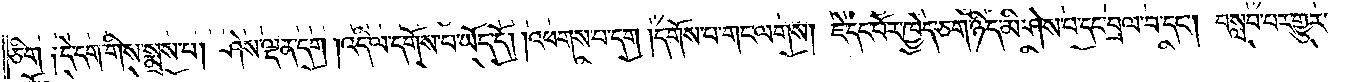ཅིག་༑དེ་དག་གིས་སྨྲས་པ། ཤེས་ལྡན་དག །འདི་ལ་དགོས་པ་ཡོད་དོ། །འཕགས་པ་དག །དགོས་པ་གང་ལགས། ཇེ་དང་པོར་ཁྱེད་ཅག་ཉིད་མི་ཤེས་པ་དང་བྲལ་བ་དང༌། བསླབ་པར་གྱུར་
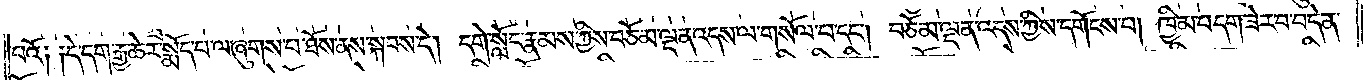པའོ༑ ༑དེ་དག་རྒྱ་ཆེར་སྨོད་པ་ལ་ཞུགས་པ་ཐོས་ནས་སྐབས་དེ། དགེ་སློང་རྣམས་ཀྱིས་བཅོམ་ལྡན་འདས་ལ་གསོལ་པ་དང༌། བཅོམ་ལྡན་འདས་ཀྱིས་དགོངས་པ། ཁྱིམ་བདག་ཟེར་བ་བདེན་
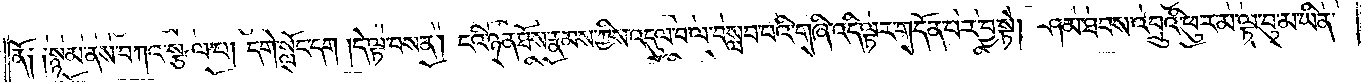ནོ༑ ༑སྙམ་ནས་བཀའ་སྩལ་པ། དགེ་སློང་དག །དེ་ལྟ་བས་ན། ངའི་ཉན་ཐོས་རྣམས་ཀྱིས་འདུལ་བ་ལ་བསླབ་པའི་གཞི་འདི་ལྟར་གདོན་པར་བྱ་སྟེ། ཤམ་ཐབས་འབྲུའི་ཕུར་མ་ལྟ་བུ་མ་ཡིན་
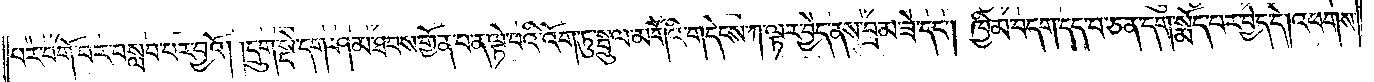པར་བགོ་བར་བསླབ་པར་བྱའོ། །དྲུག་སྡེ་དག་ཤམ་ཐབས་གྱོན་པ་ན་ལྟེ་བའི་འོག་ཏུ་སྦྲུལ་མགོའི་གདེངས་ཀ་ལྟར་བྱེད་ནས་བྲམ་ཟེ་དང༌། ཁྱིམ་བདག་དད་པ་ཅན་དག་སྨོད་པར་བྱེད་དེ། འཕགས་
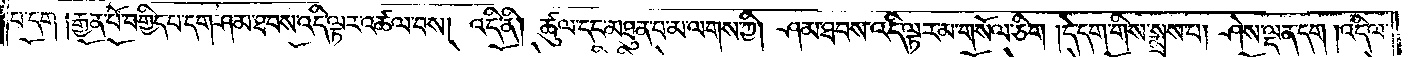པ་དག །རྒྱན་པོ་བགྱིད་པ་དག་ཤམ་ཐབས་འདི་ལྟར་འཚལ་བས། འདི་ནི། ཚུལ་དང་མཐུན་པ་མ་ལགས་ཀྱི། ཤམ་ཐབས་འདི་ལྟར་མ་གསོལ་ཅིག །དེ་དག་གིས་སྨྲས་པ། ཤེས་ལྡན་དག །འདི་ལ་
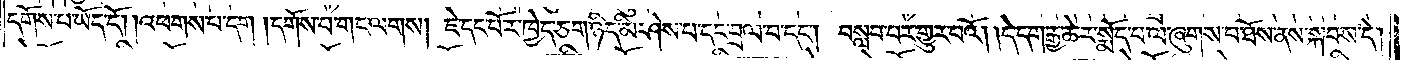དགོས་པ་ཡོད་དོ། །འཕགས་པ་དག །དགོས་པ་གང་ལགས། ཇེ་དང་པོར་ཁྱེད་ཅག་ཉིད་མི་ཤེས་པ་དང་བྲལ་བ་དང༌། བསླབ་པར་གྱུར་པའོ། །དེ་དག་རྒྱ་ཆེར་སྨོད་པ་ལ་ཞུགས་པ་ཐོས་ནས་སྐབས་དེ།
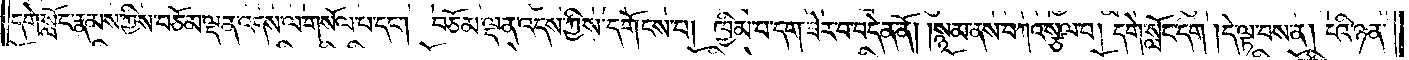དགེ་སློང་རྣམས་ཀྱིས་བཅོམ་ལྡན་འདས་ལ་གསོལ་པ་དང༌། བཅོམ་ལྡན་འདས་ཀྱིས་དགོངས་པ། ཁྱིམ་པ་དག་ཟེར་བ་བདེན་ནོ། །སྙམ་ནས་བཀའ་སྩལ་པ། དགེ་སློང་དག །དེ་ལྟ་བས་ན། ངའི་ཉན་
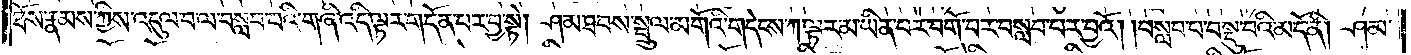ཐོས་རྣམས་ཀྱིས་འདུལ་བ་ལ་བསླབ་པའི་གཞི་འདི་ལྟར་གདོན་པར་བྱ་སྟེ། ཤམ་ཐབས་སྦྲུལ་མགོའི་གདེངས་ཀ་ལྟར་མ་ཡིན་པར་བགོ་བར་བསླབ་པར་བྱའོ། །བསླབ་པ་བསྡུ་བའི་མདོ་ནི། ཤམ་
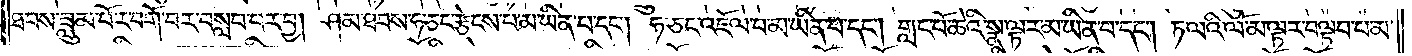ཐབས་ཟླུམ་པོར་བགོ་བར་བསླབ་པར་བྱ། ཤམ་ཐབས་ཧ་ཅང་རྩངས་པ་མ་ཡིན་པ་དང༌། ཧ་ཅང་འཇོལ་བ་མ་ཡིན་པ་དང༌། གླང་པོ་ཆེའི་སྣ་ལྟར་མ་ཡིན་པ་དང༌། ཏ་ལའི་ལོ་མ་ལྟར་བལྟབ་པ་མ་
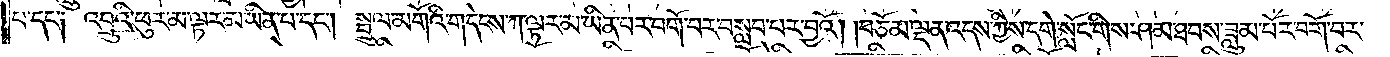པ་དང་༑ འབྲུའི་ཕུར་མ་ལྟར་མ་ཡིན་པ་དང༌། སྦྲུལ་མགོའི་གདེངས་ཀ་ལྟར་མ་ཡིན་པར་བགོ་བར་བསླབ་པར་བྱའོ། །བཅོམ་ལྡན་འདས་ཀྱིས་དགེ་སློང་གིས་ཤམ་ཐབས་ཟླུམ་པོར་བགོ་བར་
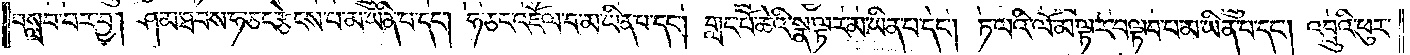བསླབ་པར་བྱ། ཤམ་ཐབས་ཧ་ཅང་རྩེངས་པ་མ་ཡིན་པ་དང༌། ཧ་ཅང་འཇོལ་བ་མ་ཡིན་པ་དང༌། གླང་པོ་ཆེའི་སྣ་ལྟར་མ་ཡིན་པ་དང༌། ཏ་ལའི་ལོ་མ་ལྟར་བལྟབ་པ་མ་ཡིན་པ་དང༌། འབྲུའི་ཕུར་
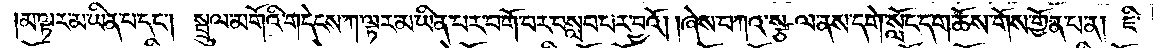མ་ལྟར་མ་ཡིན་པ་དང༌། སྦྲུལ་མགོའི་གདེངས་ཀ་ལྟར་མ་ཡིན་པར་བགོ་བར་བསླབ་པར་བྱའོ། །ཞེས་བཀའ་སྩལ་ནས་དགེ་སློང་དག་ཆོས་གོས་གྱོན་པ་ན། ཇི་
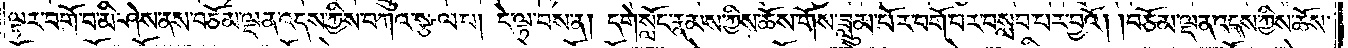ལྟར་བགོ་བ་མི་ཤེས་ནས་བཅོམ་ལྡན་འདས་ཀྱིས་བཀའ་སྩལ་པ། དེ་ལྟ་བས་ན། དགེ་སློང་རྣམས་ཀྱིས་ཆོས་གོས་ཟླུམ་པོར་བགོ་བར་བསླབ་པར་བྱའོ། །བཅོམ་ལྡན་འདས་ཀྱིས་ཆོས་
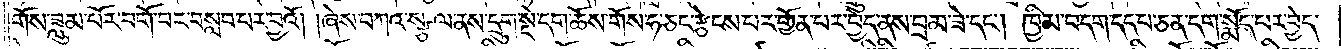གོས་ཟླུམ་པོར་བགོ་བར་བསླབ་བར་བྱའོ། །ཞེས་བཀའ་སྩལ་ནས་དྲུག་སྡེ་དག་ཆོས་གོས་ཧ་ཅང་རྩེངས་པར་གྱོན་པར་བྱེད་ནས་བྲམ་ཟེ་དང༌། ཁྱིམ་བདག་དད་པ་ཅན་དག་སྨོད་པར་བྱེད་
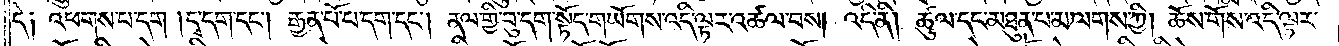དེ༑ འཕགས་པ་དག །དྭ་དག་དང༌། རྒྱན་པོ་པ་དག་དང༌། ནལ་གྱི་བུ་དག་སྟོད་གཡོགས་འདི་ལྟར་འཚལ་བས། འདི་ནི། ཚུལ་དང་མཐུན་པ་མ་ལགས་ཀྱི། ཆོས་གོས་འདི་ལྟར་
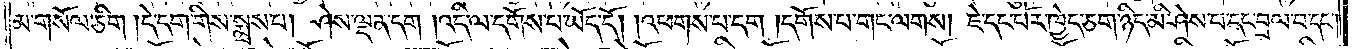མ་གསོལ་ཅིག །དེ་དག་གིས་སྨྲས་པ། ཤེས་ལྡན་དག །འདི་ལ་དགོས་པ་ཡོད་དོ། །འཕགས་པ་དག །དགོས་པ་གང་ལགས། ཇེ་དང་པོར་ཁྱེད་ཅག་ཉིད་མི་ཤེས་པ་དང་བྲལ་བ་དང༌།
